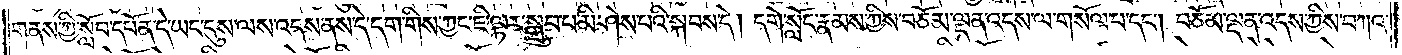གནས་ཀྱི་སློབ་དཔོན་དེ་ཡང་དུས་ལས་འདས་ནས་དེ་དག་གིས་ཀྱང་ཇི་ལྟར་སྒྲུབ་པ་མི་ཤེས་པའི་སྐབས་དེ། དགེ་སློང་རྣམས་ཀྱིས་བཅོམ་ལྡན་འདས་ལ་གསོལ་པ་དང༌། བཅོམ་ལྡན་འདས་ཀྱིས་བཀའ་
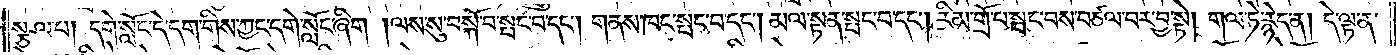སྩལ་པ། དགེ་སློང་དེ་དག་གིས་ཀྱང་དགེ་སློང་ཞིག །ལས་སུ་བསྐོ་བ་སྤང་བ་དང༌། གནས་ཁང་སྤང་བ་དང༌། མལ་སྟན་སྤང་བ་དང༌། རིམ་གྲོ་པ་སྤང་བས་བཙལ་བར་བྱ་སྟེ། གལ་ཏེ་རྙེད་ན། དེ་ལྟ་ན་
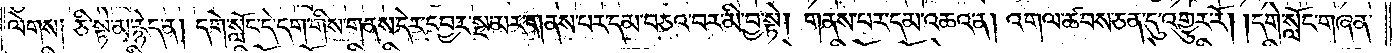ལེགས། ཅི་སྟེ་མ་རྙེད་ན། དགེ་སློང་དེ་དག་གིས་གནས་དེར་དབྱར་སྔ་མར་གནས་པར་དམ་བཅའ་བར་མི་བྱ་སྟེ། གནས་པར་དམ་འཆའ་ན། འགལ་ཚབས་ཅན་དུ་འགྱུར་རོ། དགེ་སློང་གཞན་
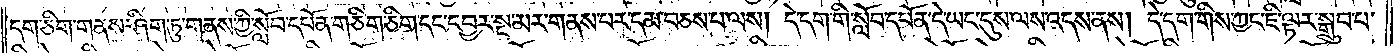དག་ཅིག་གནས་ཤིག་ཏུ་གནས་ཀྱི་སློབ་དཔོན་གཅིག་ཅིག་དང་དབྱར་སྔ་མར་གནས་པར་དམ་བཅས་པ་ལས། དེ་དག་གི་སློབ་དཔོན་དེ་ཡང་དུས་ལས་འདས་ནས། དེ་དག་གིས་ཀྱང་ཇི་ལྟར་སྒྲུབ་པ་
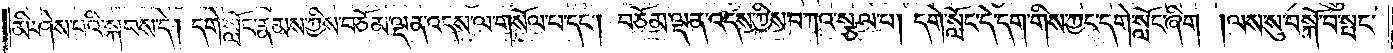མི་ཤེས་པའི་སྐབས་དེ། དགེ་སློང་རྣམས་ཀྱིས་བཅོམ་ལྡན་འདས་ལ་གསོལ་པ་དང༌། བཅོམ་ལྡན་འདས་ཀྱིས་བཀའ་སྩལ་པ། དགེ་སློང་དེ་དག་གིས་ཀྱང་དགེ་སློང་ཞིག །ལས་སུ་བསྐོ་བ་སྤང་
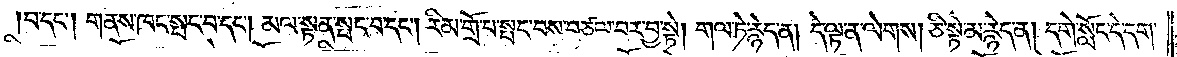བ་དང༌། གནས་ཁང་སྤང་བ་དང༌། མལ་སྟན་སྤང་བ་དང༌། རིམ་གྲོ་པ་སྤང་བས་བཙལ་བར་བྱ་སྟེ། གལ་ཏེ་རྙེད་ན། དེ་ལྟ་ན་ལེགས། ཅི་སྟེ་མ་རྙེད་ན། དགེ་སློང་དེ་དག་
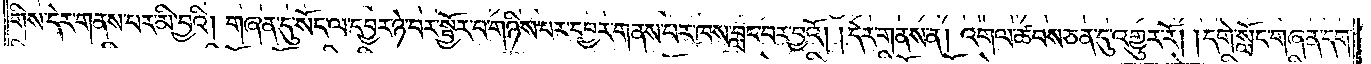གིས་དེར་གནས་པར་མི་བྱའི། གཞན་དུ་སོང་ལ་དབྱར་ཉེ་བར་སྦྱོར་བ་གཉིས་པར་དབྱར་གནས་པར་ཁས་བླང་བར་བྱའོ། །དེར་གནས་ན། འགལ་ཚབས་ཅན་དུ་འགྱུར་རོ། །དགེ་སློང་གཞན་དག་
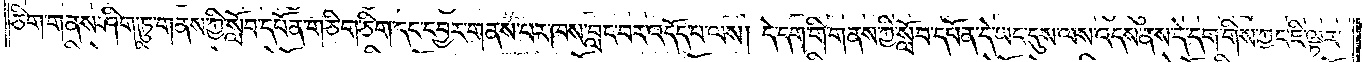ཅིག་གནས་ཤིག་ཏུ་གནས་ཀྱི་སློབ་དཔོན་གཅིག་ཅིག་དང་དབྱར་གནས་པར་ཁས་བླང་བར་འདོད་པ་ལས། དེ་དག་གི་གནས་ཀྱི་སློབ་དཔོན་དེ་ཡང་དུས་ལས་འདས་ནས་དེ་དག་གིས་ཀྱང་ཇི་ལྟར་
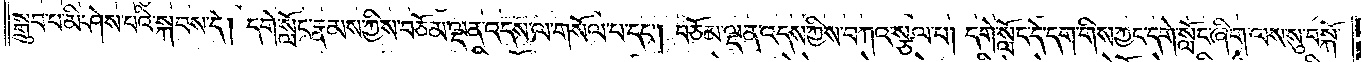སྒྲུབ་པ་མི་ཤེས་པའི་སྐབས་དེ། དགེ་སློང་རྣམས་ཀྱིས་བཅོམ་ལྡན་འདས་ལ་གསོལ་པ་དང༌། བཅོམ་ལྡན་འདས་ཀྱིས་བཀའ་སྩལ་པ། དགེ་སློང་དེ་དག་གིས་ཀྱང་དགེ་སློང་ཞིག་ལས་སུ་བསྐོ་
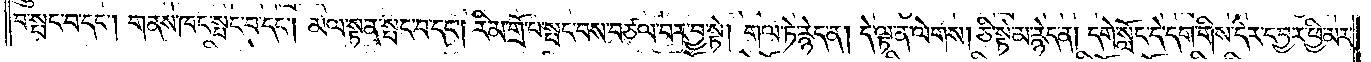བ་སྤང་བ་དང༌། གནས་ཁང་སྤང་བ་དང༌། མལ་སྟན་སྤང་བ་དང༌། རིམ་གྲོ་པ་སྤང་བས་བཙལ་བར་བྱ་སྟེ། གལ་ཏེ་རྙེད་ན། དེ་ལྟ་ན་ལེགས། ཅི་སྟེ་མ་རྙེད་ན། དགེ་སློང་དེ་དག་གིས་དེར་དབྱར་ཕྱི་མར་
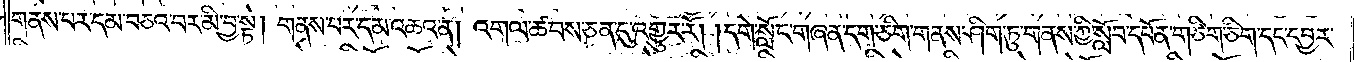གནས་པར་དམ་བཅའ་བར་མི་བྱ་སྟེ། གནས་པར་དམ་འཆའ་ན། འགལ་ཚབས་ཅན་དུ་འགྱུར་རོ། །དགེ་སློང་གཞན་དག་ཅིག་གནས་ཤིག་ཏུ་གནས་ཀྱི་སློབ་དཔོན་གཅིག་ཅིག་དང་དབྱར་
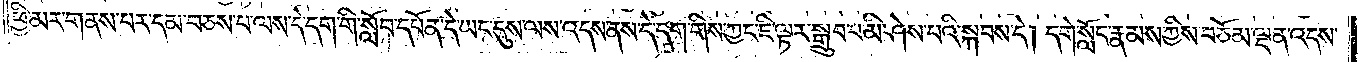ཕྱི་མར་གནས་པར་དམ་བཅས་པ་ལས་དེ་དག་གི་སློབ་དཔོན་དེ་ཡང་དུས་ལས་འདས་ནས་དེ་དག་གིས་ཀྱང་ཇི་ལྟར་སྒྲུབ་པ་མི་ཤེས་པའི་སྐབས་དེ། དགེ་སློང་རྣམས་ཀྱིས་བཅོམ་ལྡན་འདས་
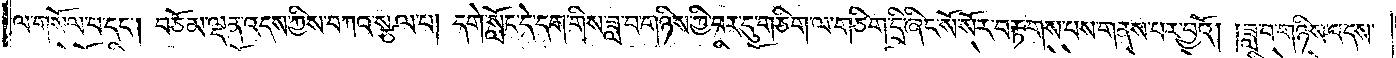ལ་གསོལ་པ་དང༌། བཅོམ་ལྡན་འདས་ཀྱིས་བཀའ་སྩལ་པ། དགེ་སློང་དེ་དག་གིས་ཟླ་བ་གཉིས་ཀྱི་བར་དུ་གཅིག་ལ་གཅིག་དྲི་ཞིང་སོ་སོར་བརྟགས་པས་གནས་པར་བྱའོ། །ཟླ་བ་གཉིས་འདས་
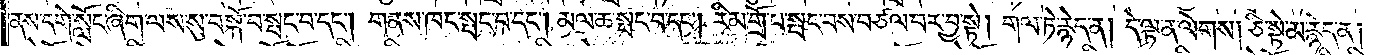ནས་དགེ་སློང་ཞིག་ལས་སུ་བསྐོ་བ་སྤང་བ་དང༌། གནས་ཁང་སྤང་བ་དང༌། མལ་ཆ་སྤང་བ་དང༌། རིམ་གྲོ་པ་སྤང་བས་བཙལ་བར་བྱ་སྟེ། གལ་ཏེ་རྙེད་ན། དེ་ལྟ་ན་ལེགས། ཅི་སྟེ་མ་རྙེད་ན།
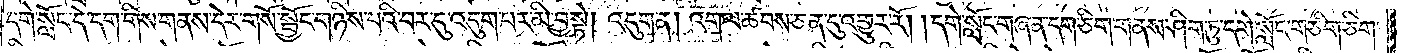དགེ་སློང་དེ་དག་གིས་གནས་དེར་གསོ་སྦྱོང་གཉིས་པའི་བར་དུ་འདུག་པར་མི་བྱ་སྟེ། འདུག་ན། འགལ་ཚབས་ཅན་དུ་འགྱུར་རོ། །དགེ་སློང་གཞན་དག་ཅིག་གནས་ཤིག་ཏུ་དགེ་སློང་གཅིག་ཅིག་
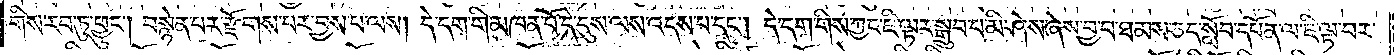གིས་རབ་ཏུ་ཕྱུང༌། བསྙེན་པར་རྫོགས་པར་བྱས་པ་ལས། དེ་དག་གི་མཁན་པོ་དེ་དུས་ལས་འདས་པ་དང༌། དེ་དག་གིས་ཀྱང་ཇི་ལྟར་སྒྲུབ་པ་མི་ཤེས་ཞེས་བྱ་བ་ཐམས་ཅད་སློབ་དཔོན་ལ་ཇི་ལྟ་བར་
